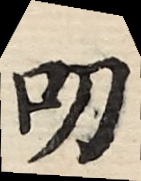叨
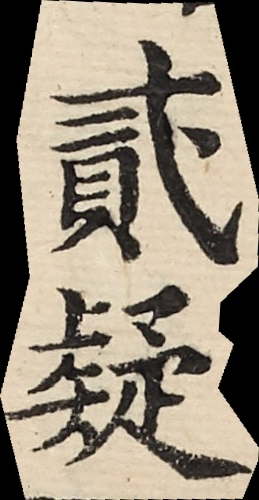貳疑
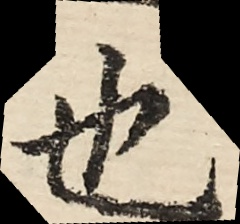也
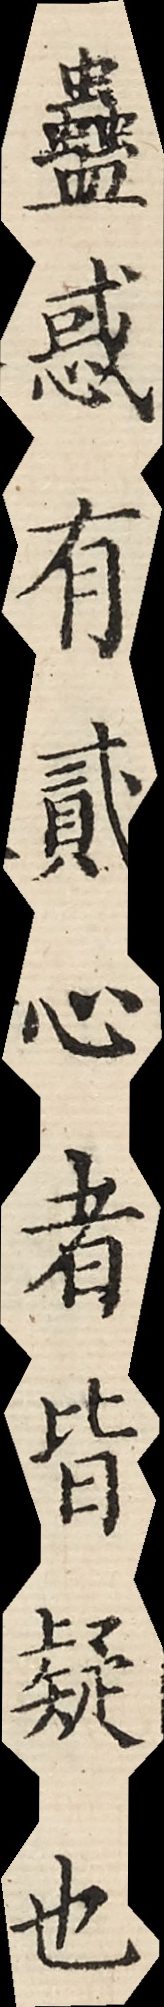蠱惑有貳心者皆疑也
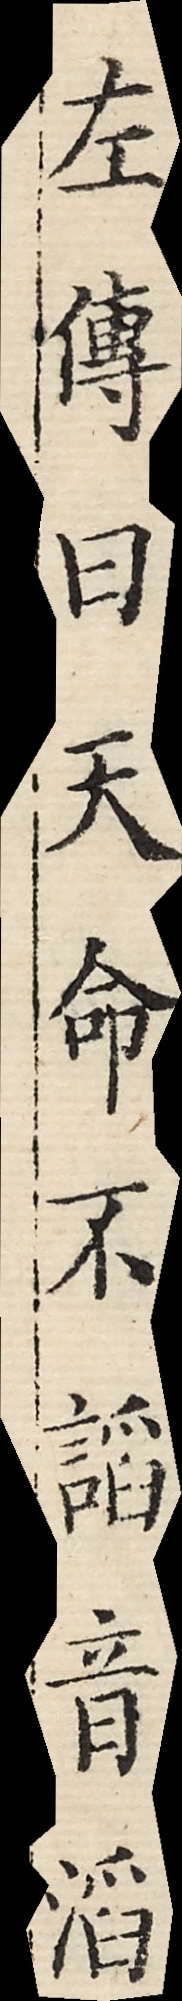左傳曰天命不謟音滔
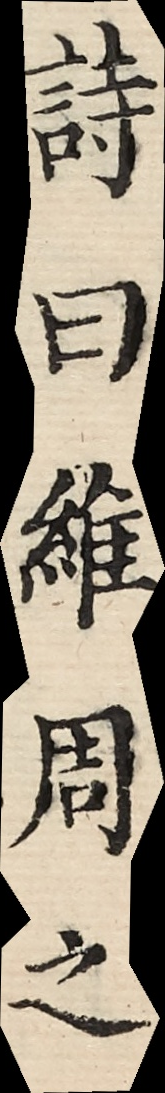詩曰維周之
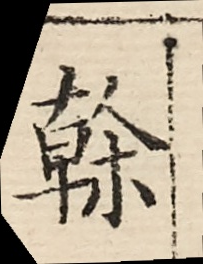榦
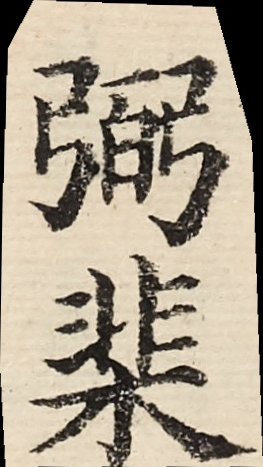弼棐
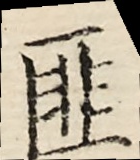匪
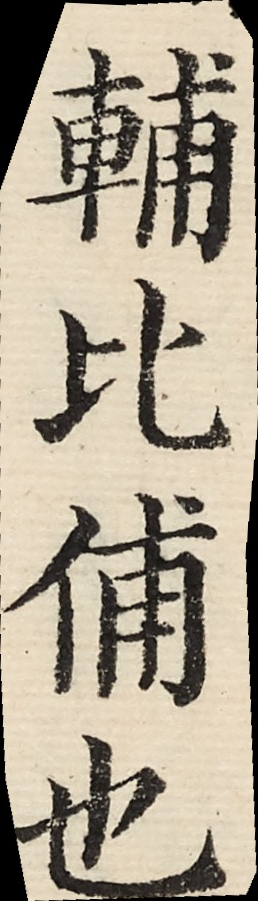輔比俌也
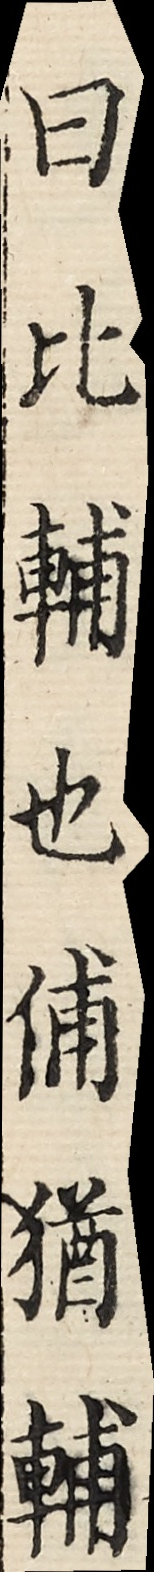曰比輔也俌猶輔
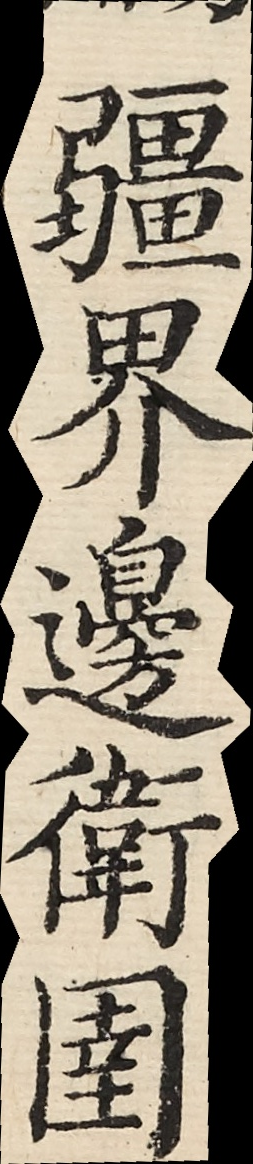疆界邊衛圉
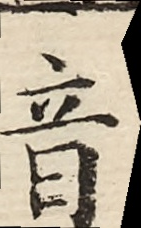音
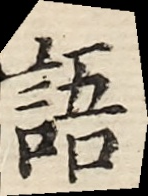語
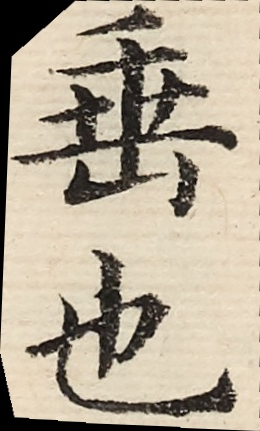垂也
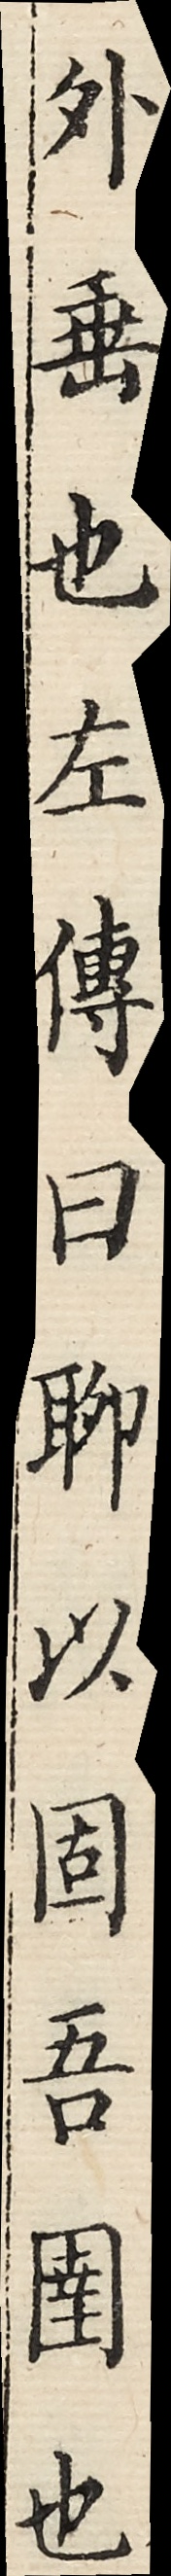外垂也左傳曰聊以固吾圉也
